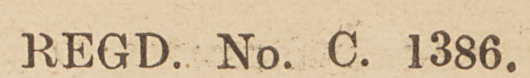REGD. No. C. 1386.
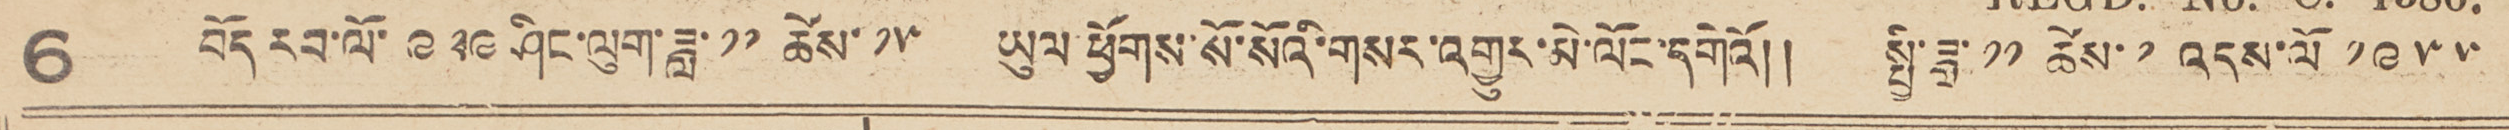6 བོད རབ་ལོ་ ༩༢༩ ཤིང་ལུག་ཟླ་ ༡༡ ཚེས་ ༡༥ ཡུལ་ཕྱོགས་སོ་སོའི་གསར་འགྱུར་མེ་ལོང་དགེའོ། །  སྤྱི་ཟླ་ ༡༡ ཚེས་ ༡ འདས་ལོ ༡༩༥༥
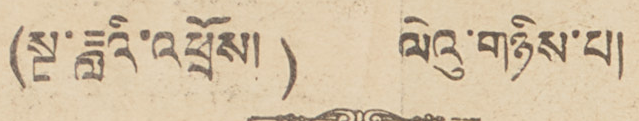(སྔ་ཟླའི་འཕྲོས།) ལེའུ་གཉིས་པ།
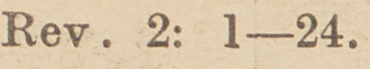Rev.  2:   1—24.
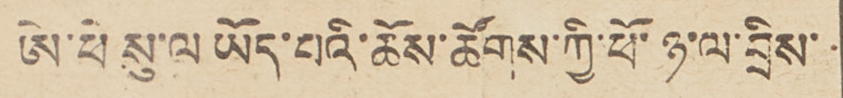ཨེ་ཕེ སུ་ལ ཡོད་པའི་ཆོས་ཚོགས་ཀྱི་ཕོ་ཉ་ལ་བྲིས་
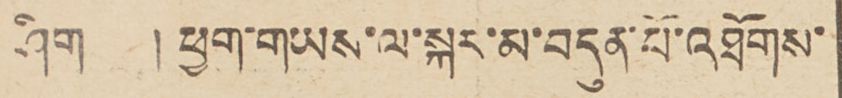ཤིག   །ཕྱག་གཡས་ལ་སྐར་མ་བདུན་པོ་འཐོགས་
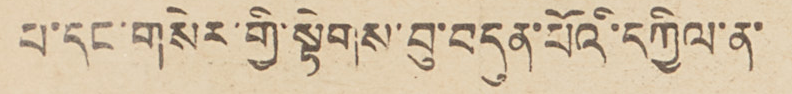པ་དང་གསེར་གྱི་སྟེགས་བུ་བདུན་པོའི་དཀྱིལ་ན་
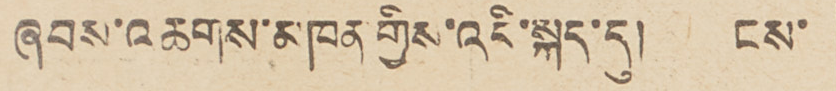ཞབས་འཆགས་མཁན གྱིས་འདི་སྐད་དུ། ངས་
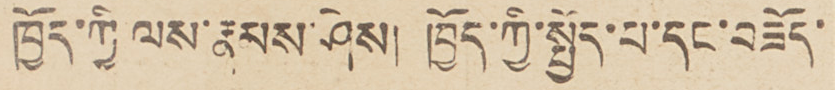ཁྱོད་ཀྱི ལས་རྣམས་ཤེས། ཁྱོད་ཀྱི་སྤྱོད་པ་དང་བཟོད་
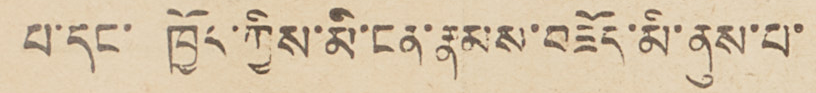པ་དང་ ཁྱོད་ཀྱིས་མི་ངན་རྣམས་བཟོད་མི་ནུས་པ་
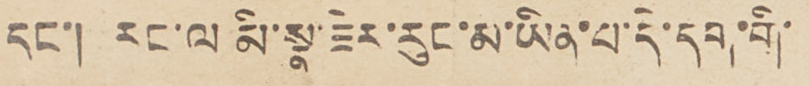དང་། རང་ལ མི་སྣ་ཟེར་རུང་མ་ཡིན་པ་དེ་དག་གི་
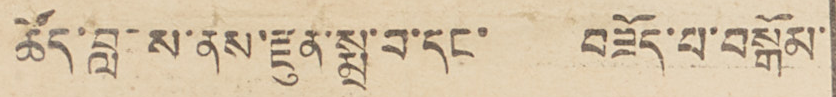ཚོད་བླངས་ནས་རྫུན་སྨྲ་བ་དང་    བཟོད་པ་བསྒོམ་
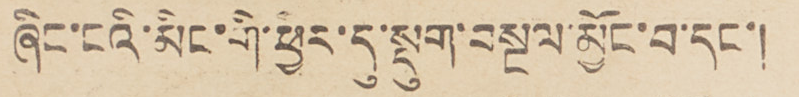ཞིང་ངའི་མིང་གི་ཕྱིར་དུ་སྡུག་བསྔལ་མྱོང་བ་དང་།
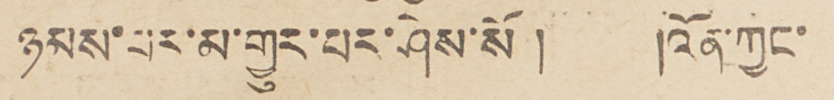ཉམས་པར་མ་གྱུར་པར་ཤེས་སོ ། །འོན་ཀྱང་
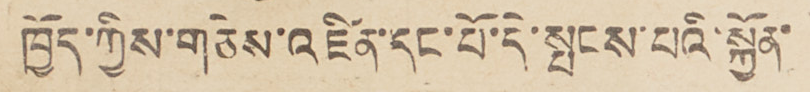ཁྱོད་ཀྱིས་གཅེས་འཛིན་དང་པོ་དེ་སྤངས་པའི་སྐྱོན་
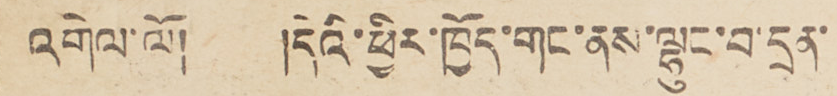འགེལ་ལོ།    །དེའི་ཕྱིར་ཁྱོད་གང་ནས་ལྷུང་བ་དྲན་
